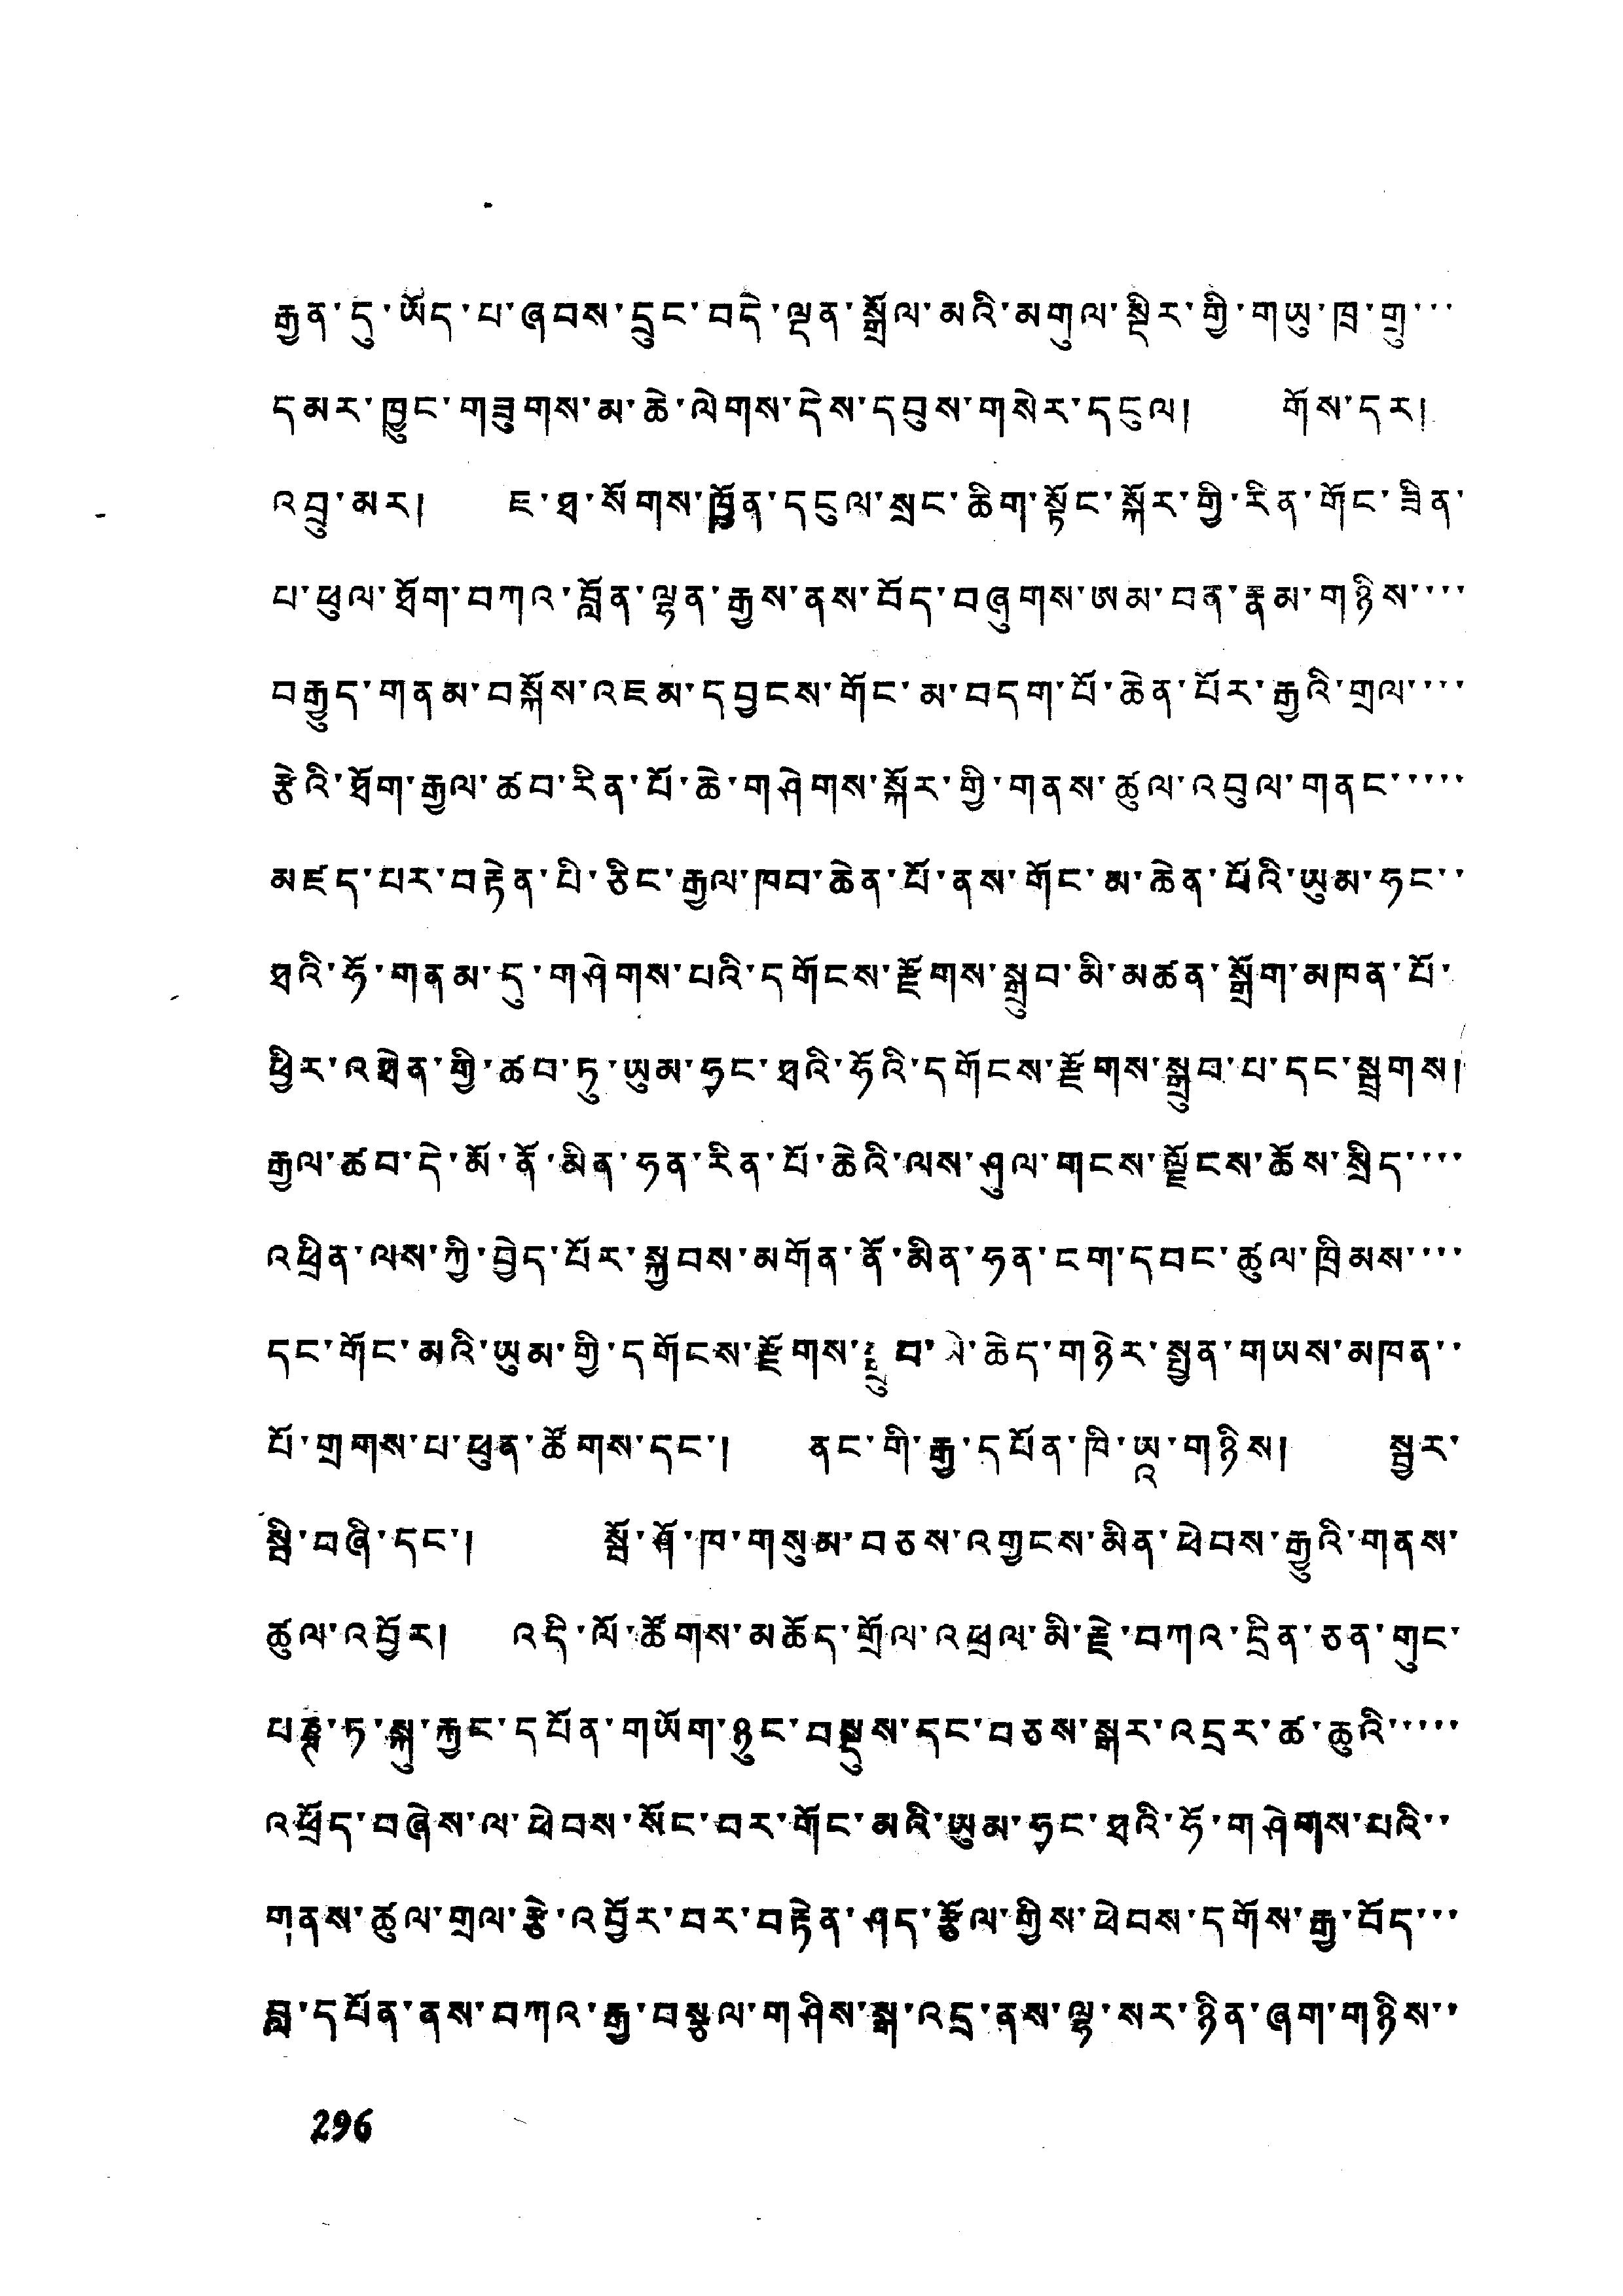རྒྱན་དུ་ཡོད་པ་ཞབས་དྲུང་བདེ་ལྡན་སྒྲོལ་མའི་མགུལ་སྡིར་གྱི་གཡུ་ཁྲ་གྲུ་
དམར་ཁྱུང་གཟུགས་མ་ཆེ་ལེགས་དེས་དབུས་གསེར་དངུལ། གོས་དར།
འབྲུ་མར། ཇ་ཐ་སོགས་ཁྱོན་དངུལ་སྲང་ཆིག་སྟོང་སྐོར་གྱི་རིན་གོང་ཟིན་
པ་ཕུལ་ཐོག་བཀའ་བློན་ལྷན་རྒྱས་ནས་བོད་བཞུགས་ཨམ་བན་རྣམ་གཉིས་་་་
བརྒྱུད་གནམ་བསྐོས་འཇམ་དབྱངས་གོང་མ་བདག་པོ་ཆེན་པོར་རྒྱའི་གྲལ་་་་
རྩེའི་ཐོག་རྒྱལ་ཚབ་རིན་པོ་ཆེ་གཤེགས་སྐོར་གྱི་གནས་ཚུལ་འབུལ་གནང་་་་་
མཛད་པར་བརྟེན་པི་ཅིང་རྒྱལ་ཁབ་ཆེན་པོ་ནས་གོང་མ་ཆེན་པོའི་ཡུམ་ཧང་་
ཐའི་ཧོ་གནམ་དུ་གཤེགས་པའི་དགོངས་རྫོགས་སྒྲུབ་མི་མཚན་སྒྲོག་མཁན་པོ་
ཕྱིར་འཐེན་གྱི་ཚབ་ཏུ་ཡུམ་ཧྭང་ཐའི་ཧོའི་དགོངས་རྫོགས་སྒྲུབ་པ་དང་སྦྲགས།
རྒྱལ་ཚབ་དེ་མོ་ནོ་མིན་ཧན་རིན་པོ་ཆེའི་ལས་ཤུལ་གངས་ལྗོངས་ཆོས་སྲིད་་་་
འཕྲིན་ལས་ཀྱི་བྱེད་པོར་སྐྱབས་མགོན་ནོ་མིན་ཧན་ངག་དབང་ཚུལ་ཁྲིམས་་་་
དང་གོང་མའི་ཡུམ་གྱི་དགོངས་རྫོགས་སྒྲུབ་ཡི་ཆེད་གཉེར་སྤྱན་གཡས་མཁན་་
པོ་གྲགས་པ་ཕུན་ཚོགས་དང་། ནང་གི་རྒྱ་དཔོན་ཁི་ཡའ་གཉིས། སྦྱར་
སྦི་བཞི་དང་། སྦོ་ཤོ་ཁ་གསུམ་བཅས་འགྱངས་མིན་ཕེབས་རྒྱུའི་གནས་
ཚུལ་འབྱོར། འདི་ལོ་ཚོགས་མཆོད་གྲོལ་འཕྲལ་མི་རྗེ་བཀའ་དྲིན་ཅན་གུང་
པཎྜི་ཏ་སྐུ་རྐྱང་དཔོན་གཡོག་ཉུང་བསྡུས་དང་བཅས་སྒར་འདྲར་ཚ་ཆུའི་་་་་
འཕྲོད་བཞེས་ལ་ཕེབས་སོང་བར་གོང་མའི་ཡུམ་ཧྭང་ཐའི་ཧོ་གཤེགས་པའི་་
གནས་ཚུལ་གྲལ་རྩེ་འབྱོར་བར་བརྟེན་ཤད་རྩོལ་གྱིས་ཕེབས་དགོས་རྒྱ་བོད་་་
བླ་དཔོན་ནས་བཀའ་རྒྱ་བསྩལ་གཤིས་སྒ་འདྲ་ནས་ལྷ་སར་ཉིན་ཞག་གཉིས་་
296
